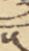༥
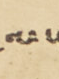ལ་།
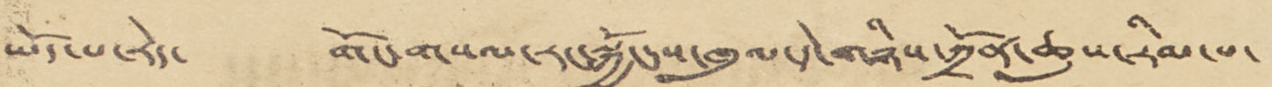ཡོད་པ་རེད་ གོང་གསལ་རང་སྐྱོང་ས་ཁུལ་དེ་གཉིས་ཀྲོན་ཆུས་རིམ་པ་
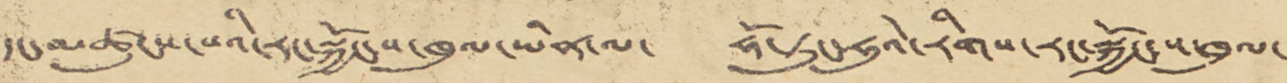དང་མཚུངས་པའི་རང་སྐྱོང་ས་ཁུལ་ཡིན་ལ་ ཧོ་ཏུང་ཧུའེ་
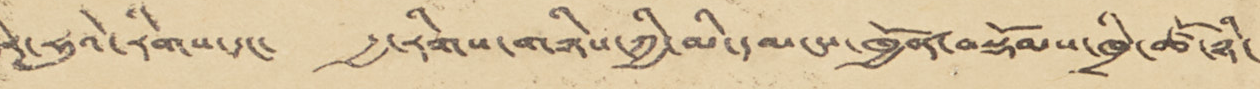དེར་ཧུའེ་རིགས་དང་ རྒྱ་རིགས་གཉིས་ཀྱི་མི་དམངས་ཁྱོན་བསྡོམས་ཁྲི་ཚོ་ཉི་
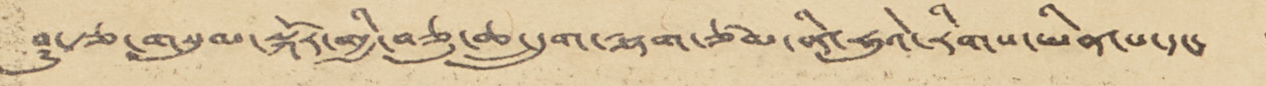ཤུ་རྩ་གསུམ་སྐོར་གྱི་བཅུ་ཆ་དྲུག་ལྷག་ཙམ་ནི་ཧུའེ་རིགས་ཡིན་པ་དང་ །
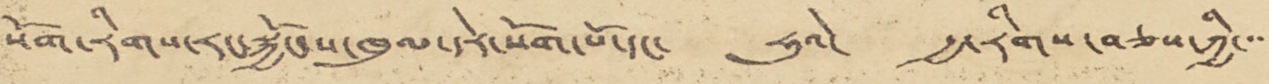སོག་རིགས་རང་སྐྱོང་ས་ཁུལ་དེར་སོག་པོདང་ ཧུའེ་ རྒྱ་རིགས་བཅས་ཀྱི་་་་
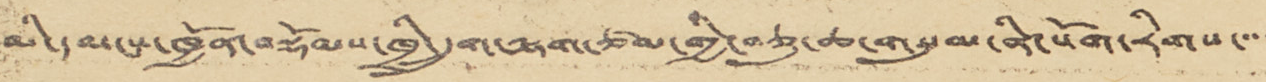མི་དམངས་ཁྱོན་བསྡོམས་ཁྲི་དྲུག་ལྷག་ཙམ་གྱི་བཅུ་ཆ་གསུམ་ནི་སོག་རིགས་་་་
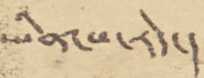ཡིན་པ་རེད་།
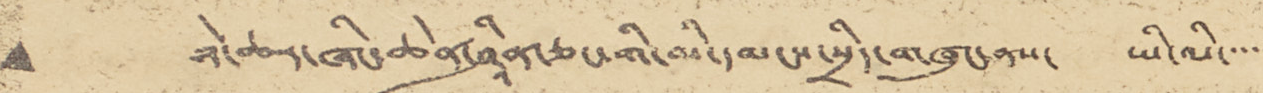• ཉེ་ཆར་ཞིང་ཆེན་ཤཱིན་ཅང་གི་མི་དམངས་སྲིད་གཞུང་ནས་ ཡི་ལི་་་་་
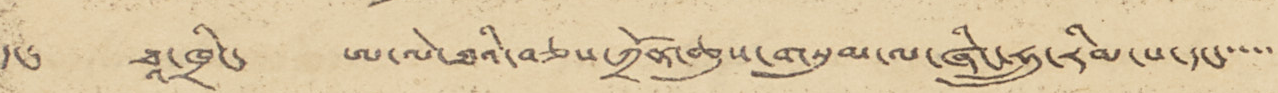དང་ ཐཱ་ཁྲིང་ ཨ་ལེ་ཐའི་བཅས་ཀྲོན་ཆུས་གསུམ་ལ་ཞིང་ཧྲུ་རིམ་པ་དང་་་་་
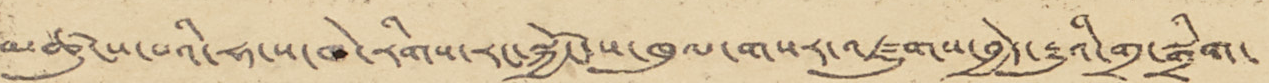མཚུངས་པའི་ཧ་ས་ཁེ་རིགས་རང་སྐྱོང་ས་ཁུལ་གསར་འཛུགས་བྱེད་རྒྱུའི་གྲྭ་སྒྲིག་
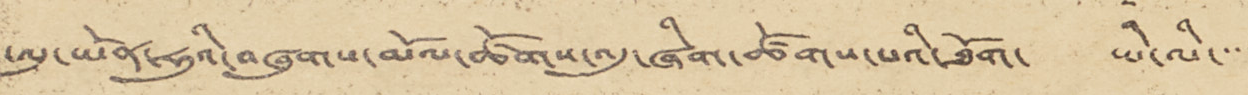ཨུ་ཡོན་ཧུའི་བཞུགས་མོལ་ཚོགས་འདུ་ཞིག་ཚོགས་པའི་ཐོག་ ཡེ་ལི་་་་་
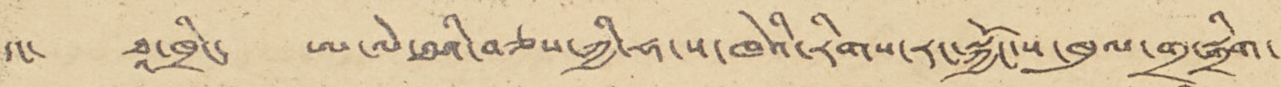དང་ ཐཱ་ཁྲིང་ ཨ་ལེ་ཐའི་བཅས་ཀྱི་ཧ་ས་ཁེའི་རིགས་རང་སྐྱོང་ས་ཁུལ་གྲྭ་སྒྲིག་
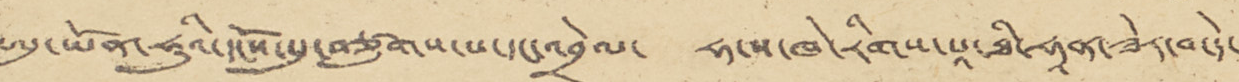ཨུ་ཡོན་ཧུའི་དངོས་སུ་བཙུགས་པ་དང་འབྲེལ་ ཧ་ས་ཁེ་རིགས་པཱ་ཐི་ཧཱན་ཟེར་བ་དེ་
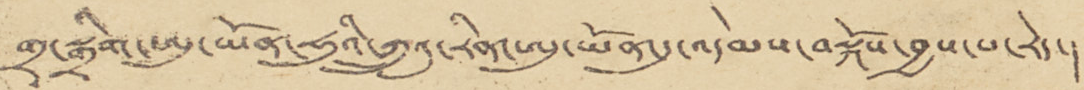གྲྭ་སྒྲིག་ཨུ་ཡོན་ཧུའི་ཀྲུའུ་རིན་ཨུ་ཡོན་དུ་འདེབས་བསྐོས་བྱས་པ་རེད་།
